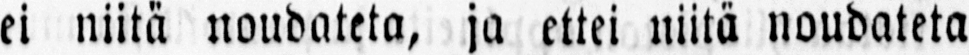ei niitä noudateta, ja ettei niitä noudateta
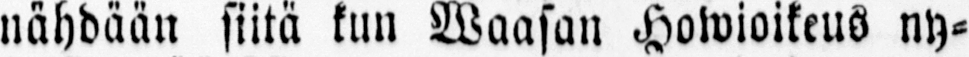nähdään siitä kun Waasan Howioikeus ny-
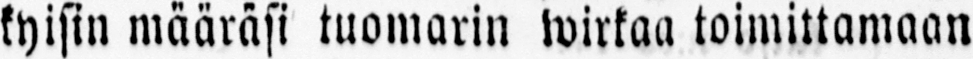kyisin määräsi tuomarin wirkaa toimittamaan
